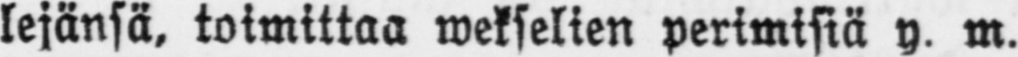lejänsä. toimittaa wekselien perimisiä y. m.
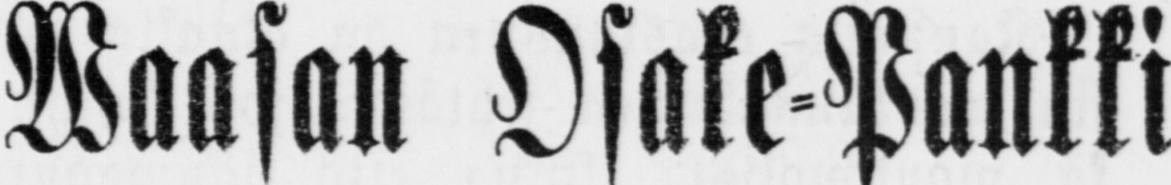Waasan Osake-Pankki
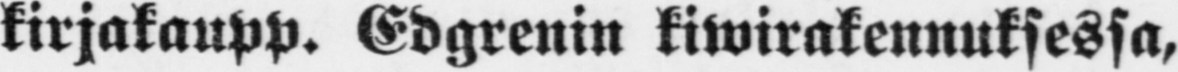kirjakaupp. Edgrenin kiwirakennuksessa,
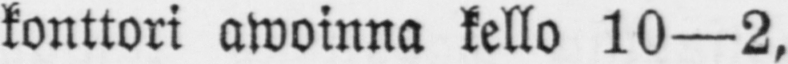konttori awoinna kello 10—2,
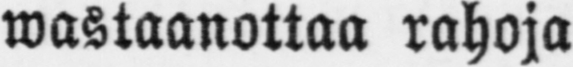wastaanottaa rahoja
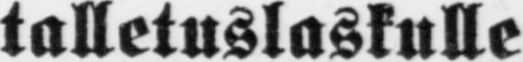talletuslaskulle
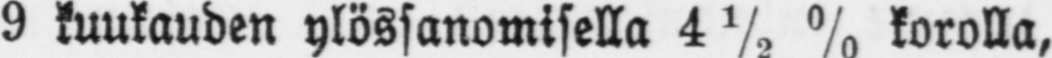9 kuukauden ylössanomisella 4½ % korolla,
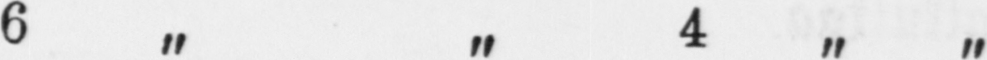6 „ „ 4 „ „
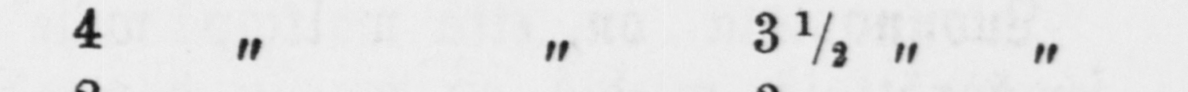4 „ „ 3½ „ „
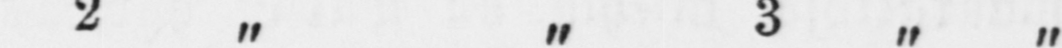2 „ „ 3 „ „
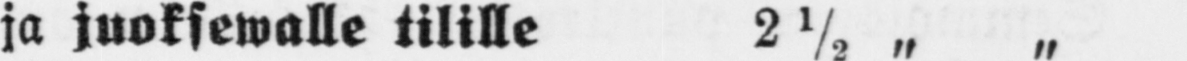ja juoksewalle tilille 2½ „ „
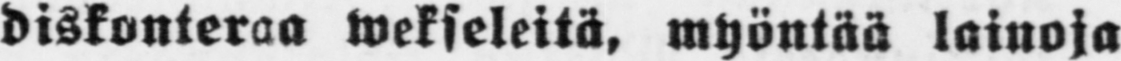diskonteraa wekseleitä. myöntää lainoja
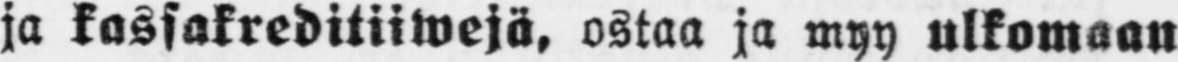ja kassakreditiitvejä, ostaa ja myy ulkomaan
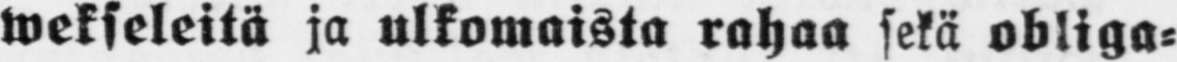wekseleitä ja ulkomaista rahaa sekä obliga-
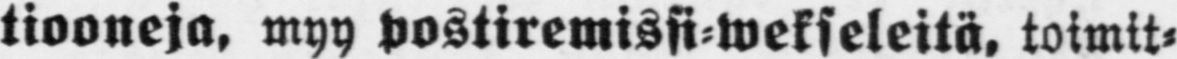tiooneja, myy postiremissi wekseleitä. toimit-
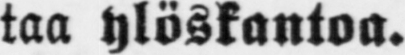taa ylöskantoa.
